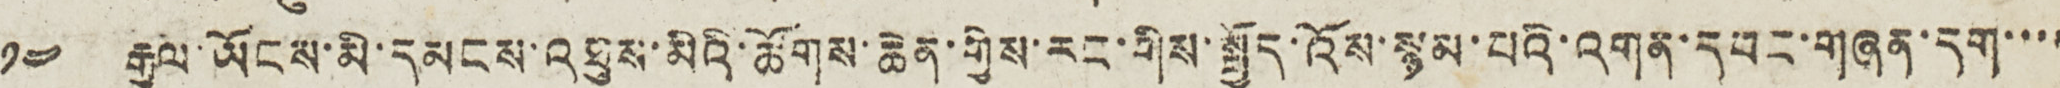༡༤ རྒྱལ་ཡོངས་མི་དམངས་འཐུས་མིའི་ཚོགས་ཆེན་གྱིས་རང་གིས་སྤྱོད་འོས་སྙམ་པའི་འགན་དབང་གཞན་དག་་་་
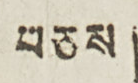བཅས།
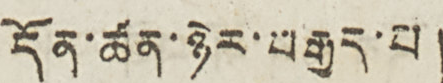དོན་ཚན་ཉེར་བརྒྱད་པ།
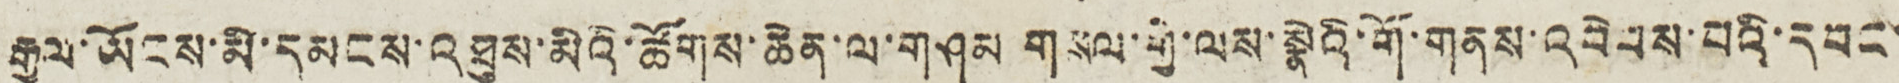རྒྱལ་ཡོངས་མི་དམངས་འཐུས་མིའི་ཚོགས་ཆེན་ལ་གཤམ གསལ་གྱི་ལས་སྣེའི་གོ་གནས་འབེབས་བའི་དབང་
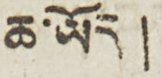ཆ་ཡོད།
